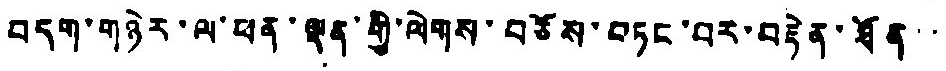བདག་གཉེར་ལ་ཕན་ལྡན་གྱི་ལེགས་བཅོས་བཏང་བར་བརྟེན་ཐོན་་
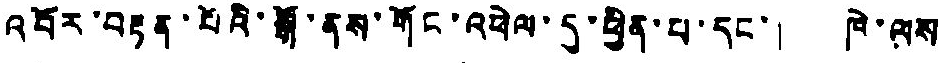འབོར་བརྟན་པོའི་སྒོ་ནས་གོང་འཕེལ་དུ་ཕྱིན་པ་དང་། ཁེ་ལས
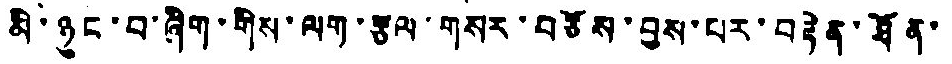མི་ཉུང་བ་ཞིག་གིས་ལག་རྩལ་གསར་བཅོས་བྱས་པར་བརྟེན་ཐོན་
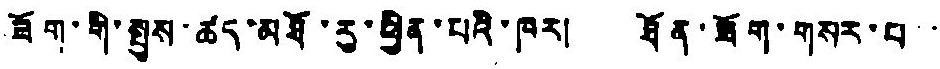ཟོག་གི་སྤུས་ཚད་མཐོ་རུ་ཕྱིན་པའི་ཁར། ཐོན་ཐོག་གསར་པ་་
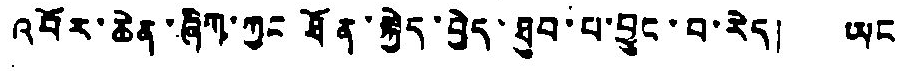འབོར་ཆེན་ཞིག་ཀྱང ཐོན་སྐྱེད་བྱེད་ཐུབ་པ་བྱུང་བ་རེད། ཡང
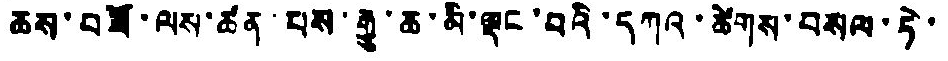ཆས་བཟོ་ལས་ཚན་ པས་རྒྱུ་ཆ་མི་ལྡང་བའི་དཀའ་ཚེགས་བསལ་ཏེ་
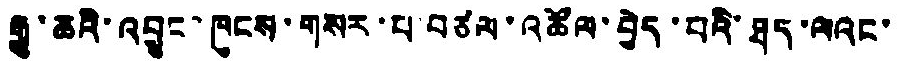རྒྱུ་ཆའི་འབྱུང་ཁུངས་གསར་པ་བཙལ་འཚོལ་བྱེད་པའི་ཐད་ལའང་
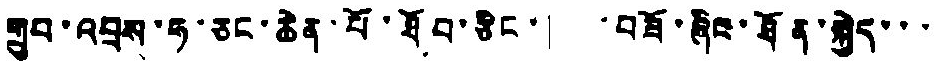གྲུབ་འབྲས་ཧ་ཅང་ཆེན་པོ་ཐོབ་ཅིང་། བཟོ་ཞིང་ཐོན་སྐྱེད་་་
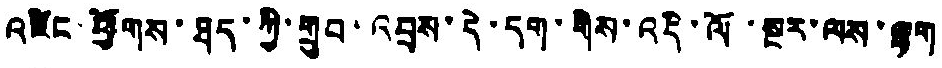འཛིང་ཕྱོགས་ཐད་ཀྱི་གྲུབ་འབྲས་དེ་དག་གིས་འདི་ལོ་སྔར་ལས་ལྷག
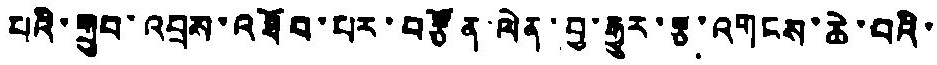པའི་གྲུབ་འབྲས་འཐོབ་པར་བརྩོན་ལེན་བྱ་རྒྱུར་རྩ་འགངས་ཆེ་བའི་
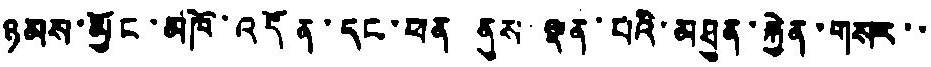ཉམས་མྱོང་མཁོ་འདོན་དང་ཕན ནུས་ལྡན་པའི་མཐུན་རྐྱེན་གསར་་
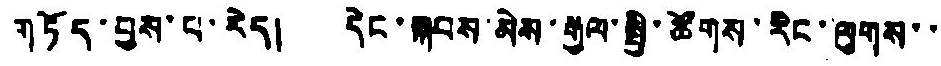གཏོད་བྱས་པ་རེད། དེང་སྐབས་མེས་རྒྱལ་སྤྱི་ཚོགས་རིང་ལུགས་་
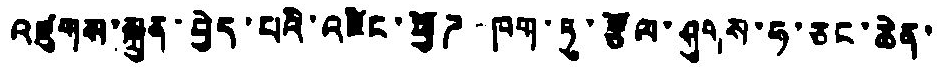འཛུགས་སྐྲུན་བྱེད་པའི་འཛིང་ཕྱོཌ ཁག་ཏུ་རྩོལ་ཤུགས་ཧ་ཅང་ཆེན་
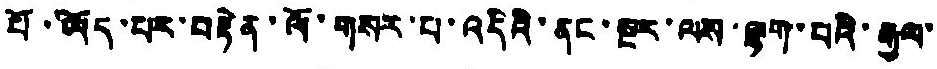པོ་ཡོད་པར་བརྟེན་ལོ་གསར་པ་འདིའི་ནང་སྔར་ལས་ལྷག་པའི་རྒྱལ་
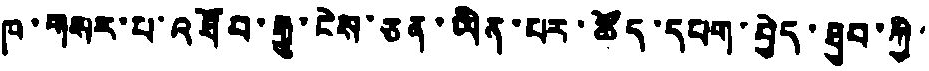ཁ་གསར་པ་འཐོབ་རྒྱུ་ངེས་ཅན་ཡིན་པར་ཚོད་དཔག་བྱེད་ཐུབ་ཀྱི་
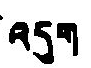འདུག
